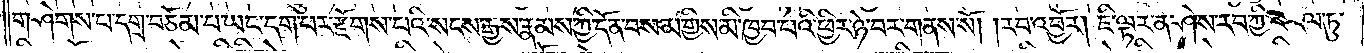གཤེགས་པ་དགྲ་བཅོམ་པ་ཡང་དག་པར་རྫོགས་པའི་སངས་རྒྱས་རྣམས་ཀྱི་དོན་བསམ་གྱིས་མི་ཁྱབ་པའི་ཕྱིར་ཉེ་བར་གནས་སོ། །རབ་འབྱོར། ཇི་ལྟར་ན་ཤེས་རབ་ཀྱི་ཕ་རོལ་ཏུ་
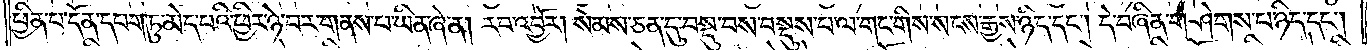ཕྱིན་པ་དོན་དཔག་ཏུ་མེད་པའི་ཕྱིར་ཉེ་བར་གནས་པ་ཡིན་ཞེ་ན། རབ་འབྱོར། སེམས་ཅན་དུ་བསྡུ་བས་བསྡུས་པ་ལ་གང་གིས་སངས་རྒྱས་ཉིད་དང༌། དེ་བཞིན་གཤེགས་པ་ཉིད་དང༌།
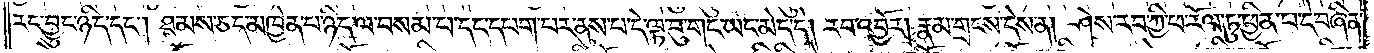རང་བྱུང་ཉིད་དང༌། ཐམས་ཅད་མཁྱེན་པ་ཉིད་ལ་བསམ་པ་དང་དཔག་པར་ནུས་པ་དེ་ལྟ་བུ་གང་ཡང་མེད་དེ། རབ་འབྱོར། རྣམ་གྲངས་དེས་ན། ཤེས་རབ་ཀྱི་ཕ་རོལ་ཏུ་ཕྱིན་པ་དེ་བཞིན་
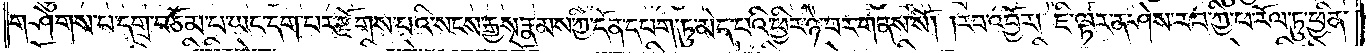གཤེགས་པ་དགྲ་བཅོམ་པ་ཡང་དག་པར་རྫོགས་པའི་སངས་རྒྱས་རྣམས་ཀྱི་དོན་དཔག་ཏུ་མེད་པའི་ཕྱིར་ཉེ་བར་གནས་སོ། །རབ་འབྱོར། ཇི་ལྟར་ན་ཤེས་རབ་ཀྱི་ཕ་རོལ་ཏུ་ཕྱིན་
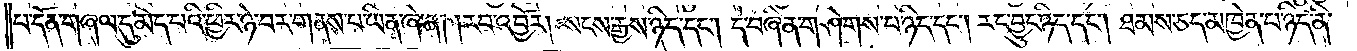པ་དོན་གཞལ་དུ་མེད་པའི་ཕྱིར་ཉེ་བར་གནས་པ་ཡིན་ཞེ་ན། རབ་འབྱོར། སངས་རྒྱས་ཉིད་དང༌། དེ་བཞིན་གཤེགས་པ་ཉིད་དང༌། རང་བྱུང་ཉིད་དང༌། ཐམས་ཅད་མཁྱེན་པ་ཉིད་ནི་
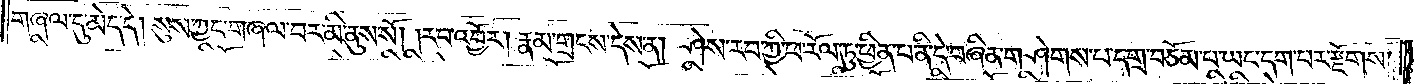གཞལ་དུ་མེད་དེ། སུས་ཀྱང་གཞལ་བར་མི་ནུས་སོ། །རབ་འབྱོར། རྣམ་གྲངས་དེས་ན། ཤེས་རབ་ཀྱི་ཕ་རོལ་ཏུ་ཕྱིན་པ་ནི་དེ་བཞིན་གཤེགས་པ་དགྲ་བཅོམ་པ་ཡང་དག་པར་རྫོགས་
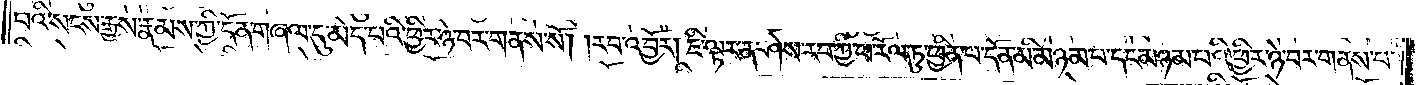པའི་སངས་རྒྱས་རྣམས་ཀྱི་དོན་གཞལ་དུ་མེད་པའི་ཕྱིར་ཉེ་བར་གནས་སོ། །རབ་འབྱོར། ཇི་ལྟར་ན་ཤེས་རབ་ཀྱི་ཕ་རོལ་ཏུ་ཕྱིན་པ་དོན་མི་མཉམ་པ་དང་མཉམ་པའི་ཕྱིར་ཉེ་བར་གནས་པ་
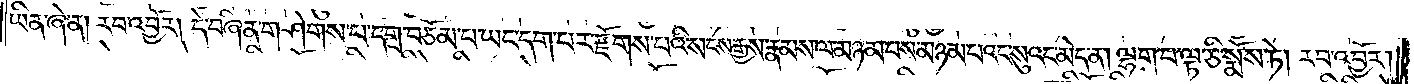ཡིན་ཞེ་ན། རབ་འབྱོར། དེ་བཞིན་གཤེགས་པ་དགྲ་བཅོམ་པ་ཡང་དག་པར་རྫོགས་པའི་སངས་རྒྱས་རྣམས་ལ་མཉམ་པས་མཉམ་པའང་སུའང་མེད་ན། ལྷག་པ་ལྟ་ཅི་སྨོས་ཏེ། རབ་འབྱོར།
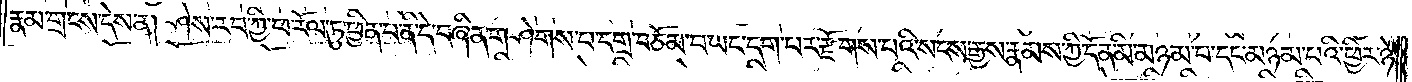རྣམ་གྲངས་དེས་ན། ཤེས་རབ་ཀྱི་ཕ་རོལ་ཏུ་ཕྱིན་པ་ནི་དེ་བཞིན་གཤེགས་པ་དགྲ་བཅོམ་པ་ཡང་དག་པར་རྫོགས་པའི་སངས་རྒྱས་རྣམས་ཀྱི་དོན་མི་མཉམ་པ་དང་མཉམ་པའི་ཕྱིར་ཉེ་
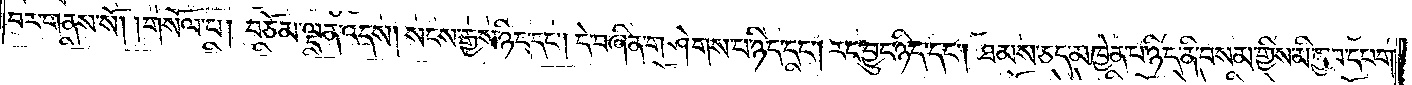བར་གནས་སོ། །གསོལ་པ། བཅོམ་ལྡན་འདས། སངས་རྒྱས་ཉིད་དང༌། དེ་བཞིན་གཤེགས་པ་ཉིད་དང༌། རང་བྱུང་ཉིད་དང༌། ཐམས་ཅད་མཁྱེན་པ་ཉིད་ནི་བསམ་གྱིས་མི་ཁྱབ་དཔག་
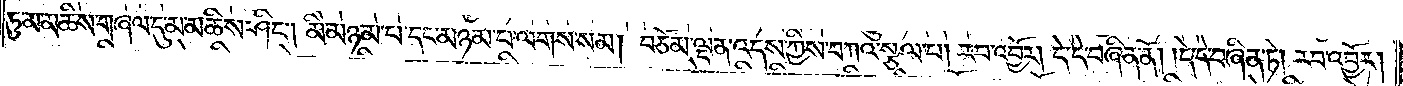ཏུ་མ་མཆིས་གཞལ་དུ་མ་མཆིས་ཤིང༌། མི་མཉམ་པ་དང་མཉམ་པ་ལགས་སམ། བཅོམ་ལྡན་འདས་ཀྱིས་བཀའ་སྩལ་པ། རབ་འབྱོར། དེ་དེ་བཞིན་ནོ། །དེ་དེ་བཞིན་ཏེ། རབ་འབྱོར།
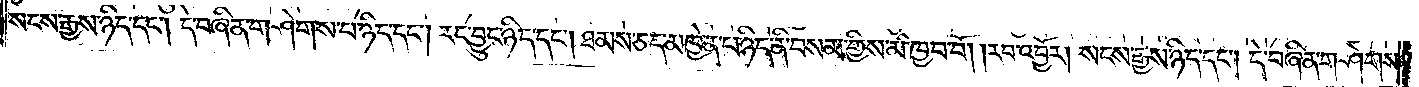སངས་རྒྱས་ཉིད་དང༌། དེ་བཞིན་གཤེགས་པ་ཉིད་དང༌། རང་བྱུང་ཉིད་དང༌། ཐམས་ཅད་མཁྱེན་པ་ཉིད་ནི་བསམ་གྱིས་མི་ཁྱབ་བོ། །རབ་འབྱོར། སངས་རྒྱས་ཉིད་དང༌། དེ་བཞིན་གཤེགས་
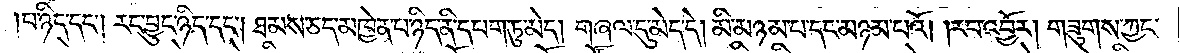པ་ཉིད་དང༌། རང་བྱུང་ཉིད་དང༌། ཐམས་ཅད་མཁྱེན་པ་ཉིད་ནི་དཔག་ཏུ་མེད། གཞལ་དུ་མེད་དེ། མི་མཉམ་པ་དང་མཉམ་པའོ། །རབ་འབྱོར། གཟུགས་ཀྱང་
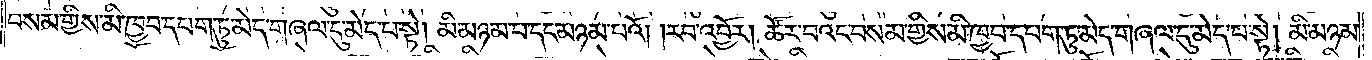བསམ་གྱིས་མི་ཁྱབ་དཔག་ཏུ་མེད་གཞལ་དུ་མེད་པ་སྟེ། མི་མཉམ་པ་དང་མཉམ་པའོ། །རབ་འབྱོར། ཚོར་བའང་བསམ་གྱིས་མི་ཁྱབ་དཔག་ཏུ་མེད་གཞལ་དུ་མེད་པ་སྟེ། མི་མཉམ་
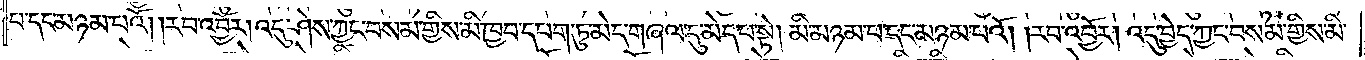པ་དང་མཉམ་པའོ། །རབ་འབྱོར། འདུ་ཤེས་ཀྱང་བསམ་གྱིས་མི་ཁྱབ་དཔག་ཏུ་མེད་གཞལ་དུ་མེད་པ་སྟེ། མི་མཉམ་པ་དང་མཉམ་པའོ། །རབ་འབྱོར། འདུ་བྱེད་ཀྱང་བསམ་གྱིས་མི་
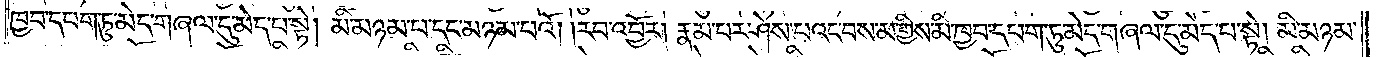ཁྱབ་དཔག་ཏུ་མེད་གཞལ་དུ་མེད་པ་སྟེ། མི་མཉམ་པ་དང་མཉམ་པའོ། །རབ་འབྱོར། རྣམ་པར་ཤེས་པའང་བསམ་གྱིས་མི་ཁྱབ་དཔག་ཏུ་མེད་གཞལ་དུ་མེད་པ་སྟེ། མི་མཉམ་
